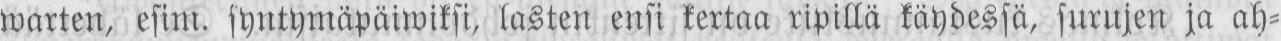warten, esim. syntymäpäiwiksi, lasten ensi kertaa ripillä käydessä, surujen ja ah-
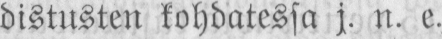distusten kohdatessa j. n. e.
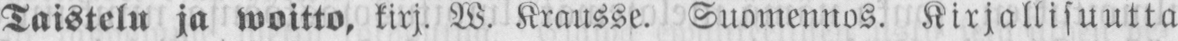Taistelu ja woitto, kirj. W. Krausse. Suomennos. Kirjallisuutta
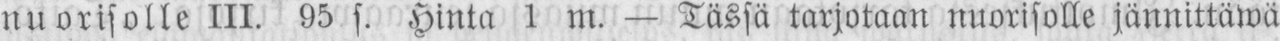nuorisolle III. 95 s. Hinta 1 m. — Tässä tarjotaan nuorisolle jännittäwä
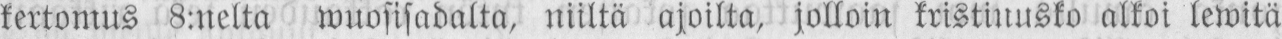kertomus 8:nelta wuosisadalta, niiltä ajoilta, jolloin kristinusko alkoi lewitä
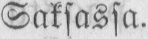Saksassa.
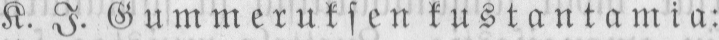K. J. Gummeruksen kustantamia:
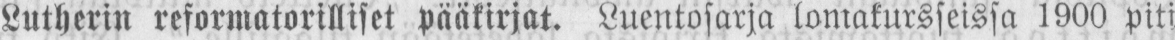Lutherin reformatorilliset pääkirjat. Luentosarja lomakursseissa 1900 piti
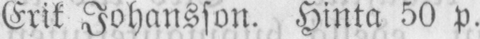Erik Johansson. Hinta 50 p.
